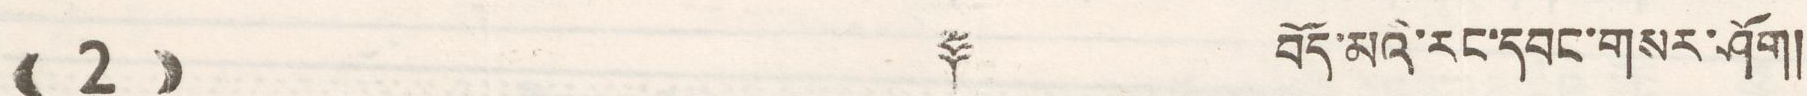(( 2 )) ༈ བོད་མའི་རང་དབང་གསར་ཤོག།
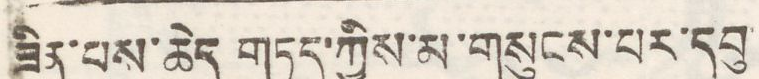ཟིན་པས་ཆེད གཏད་ཀྱིས་མ་གསུངས་པར་དབུ་
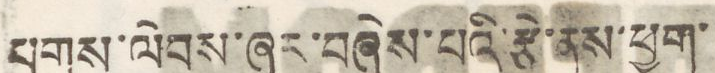པགས་ལེབས་ཞྭར་བཞེས་པའི་རྩེ་ནས་ཕྱག་
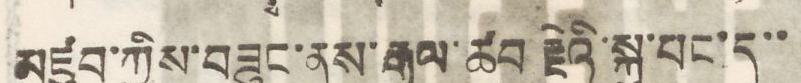མཛུབ་ཀྱིས་བཟུང་ནས་རྒྱལ་ཚབ རྗེའི་སྐུ་པང་དུ་་
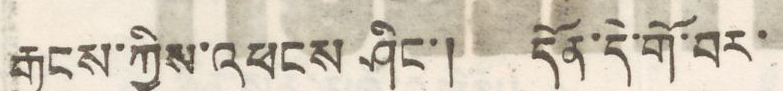རྒྱངས་ཀྱིས་འཕངས ཤིང་། དོན་དེ་གོ་བར་
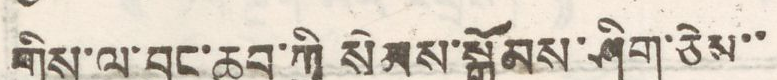གྱིས་ལ་བྱང་ཆུབ་ཀྱི སེམས་སྒོམས་ཤིག་ཅེས་་
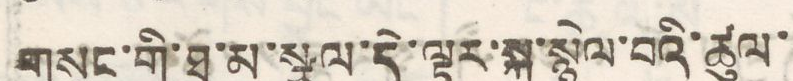གསུང་གི་ཐ་མ་སྩལ་དེ་ལྟར་སྐུ་སྙེལ་བའི་ཚུལ་
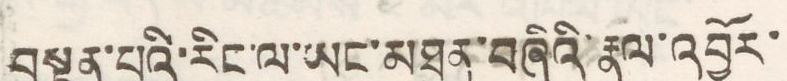བསྟན་པའི་རིང་ལ་ཡང་མཐུན་བཞིའི་རྣམ་འབྱོར་
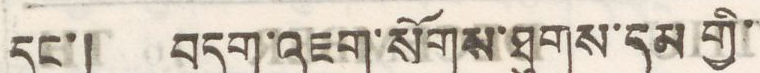དང་། བདག་འཇུག་སོགས་ཐུགས་དམ གྱི་
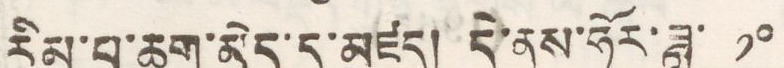རིམ་པ་ཆག་མེད་དུ་མཛད། དེ་ནས་ཧོར་ཟླ་ ༡༠
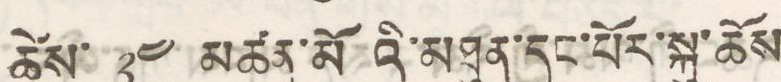ཚེས་ ༢༤ མཚམ་མོའི་མཐུན་དང་པོར་སྐུ་ཆོས
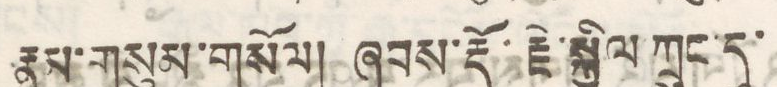རྣམ་གསུམ་གསོལ། ཞབས་རྡོ་རྗེ་སྐྱིལ ཀྲུང་དུ་
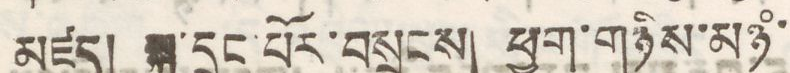མཛད། སྐུ་དྲང་པོར་བསྲངས། ཕྱག་གཉིས་མཉཾ་
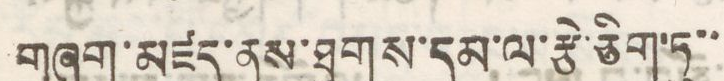གཞག་མཛད་ནས་ཐུགས་དམ་ལ་རྩེ་ཅིག་ཏུ་་
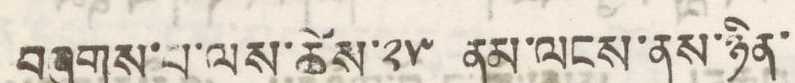བཞུགས་པ་ལས་ཚེས་༢༥ ནམ་ལངས་ནས་ཉིན་
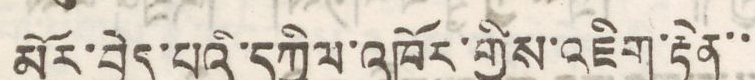མོར་བྱེད་པའི་དཀྱིལ་འཁོར་གྱིས་འཇིག་རྟེན་་
